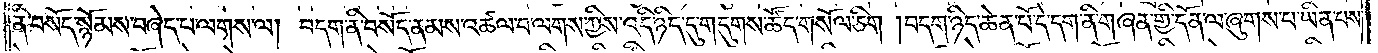ནི་བསོད་སྙོམས་བཞེད་པ་ལགས་ལ། བདག་ནི་བསོད་ནམས་འཚལ་བ་ལགས་ཀྱིས་འདི་ཉིད་དུ་གདུགས་ཚོད་གསོལ་ཅིག །བདག་ཉིད་ཆེན་པོ་དེ་དག་ནི་གཞན་གྱི་དོན་ལ་ཞུགས་པ་ཡིན་པས་
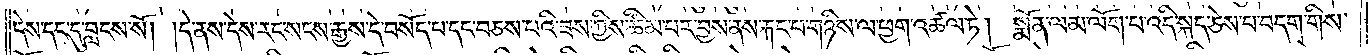དེས་དང་དུ་བླངས་སོ། །དེ་ནས་དེས་རང་སངས་རྒྱས་དེ་བསོད་པ་དང་བཅས་པའི་ཟས་ཀྱིས་ཚིམ་པར་བྱས་ནས་རྐང་པ་གཉིས་ལ་ཕྱག་འཚལ་ཏེ། སྨོན་ལམ་ལོག་པ་འདི་སྐད་ཅེས་པ་བདག་གིས་
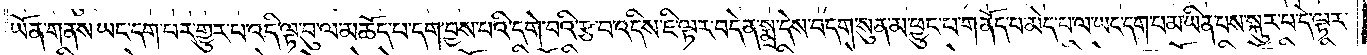ཡོན་གནས་ཡང་དག་པར་གྱུར་པ་འདི་ལྟ་བུ་ལ་མཆོད་པ་དག་བྱས་པའི་དགེ་བའི་རྩ་བ་འདིས་ཇི་ལྟར་བདེན་སྨྲ་དེས་བདག་སུན་མ་ཕྱུང་པ་གནོད་པ་མེད་པ་ལ་ཡང་དག་པ་མ་ཡིན་པས་སྐུར་པ་དེ་ལྟར་
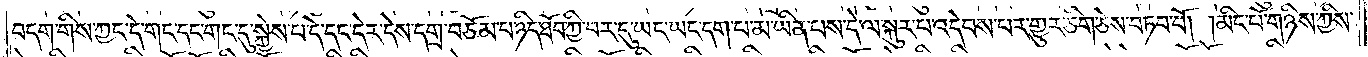བདག་གིས་ཀྱང་དེ་གང་དང་གང་དུ་སྐྱེས་པ་དེ་དང་དེར་དེས་དགྲ་བཅོམ་པ་ཉིད་ཐོབ་ཀྱི་བར་དུ་ཡང་ཡང་དག་པ་མ་ཡིན་པས་དེ་ལ་སྐུར་པ་འདེབས་པར་གྱུར་ཅིག་ཅེས་བཏབ་བོ། །མིང་པོ་གཉིས་ཀྱིས་
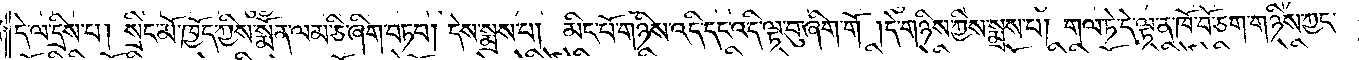དེ་ལ་དྲིས་པ། སྲིང་མོ་ཁྱོད་ཀྱིས་སྨོན་ལམ་ཅི་ཞིག་བཏབ། དེས་སྨྲས་པ། མིང་པོ་གཉིས་འདི་དང་འདི་ལྟ་བུ་ཞིག་གོ །དེ་གཉིས་ཀྱིས་སྨྲས་པ། གལ་ཏེ་དེ་ལྟ་ན་ཁོ་བོ་ཅག་གཉིས་ཀྱང་
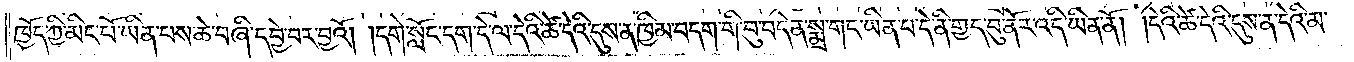ཁྱོད་ཀྱི་མིང་པོ་ཡིན་པས་ཆེ་བཞི་དབྱེ་བར་བྱའོ། །དགེ་སློང་དག་དེ་ལ་དེའི་ཚེ་དེའི་དུས་ན་ཁྱིམ་བདག་གི་བུ་བདེན་སྨྲ་གང་ཡིན་པ་དེ་ནི་གྱད་བུ་ནོར་འདི་ཡིན་ནོ། །དེའི་ཚེ་དེའི་དུས་ན་དེའི་མ་
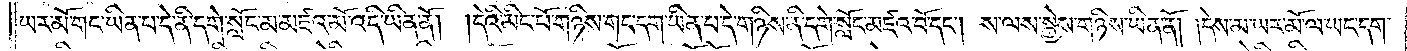ཡར་མོ་གང་ཡིན་པ་དེ་ནི་དགེ་སློང་མ་མཛའ་མོ་འདི་ཡིན་ནོ། །དེའི་མིང་པོ་གཉིས་གང་དག་ཡིན་པ་དེ་གཉིས་ནི་དགེ་སློང་མཛའ་བོ་དང༌། ས་ལས་སྐྱེས་གཉིས་ཡིན་ནོ། །དེས་མ་ཡར་མོ་ལ་ཡང་དག་
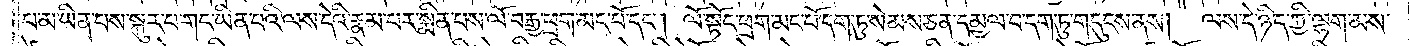པ་མ་ཡིན་པས་སྐུར་བ་གང་ཡིན་པའི་ལས་དེའི་རྣམ་པར་སྨིན་པས་ལོ་བརྒྱ་ཕྲག་མང་པོ་དང༌། ལོ་སྟོང་ཕྲག་མང་པོ་དག་ཏུ་སེམས་ཅན་དམྱལ་བ་དག་ཏུ་གདུངས་ནས།    ལས་དེ་ཉིད་ཀྱི་ལྷག་མས་
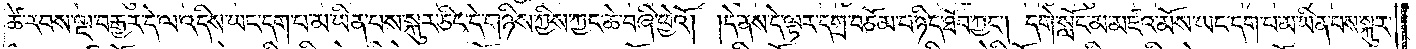ཚེ་རབས་ལྔ་བརྒྱར་དེ་ལ་འདིས་ཡང་དག་པ་མ་ཡིན་པས་སྐུར་ཅིང་དེ་གཉིས་ཀྱིས་ཀྱང་ཆེ་བཞི་ཕྱེའོ། །དེ་ནས་དེ་ལྟར་དགྲ་བཅོམ་པ་ཉིད་ཐོབ་ཀྱང༌། དགེ་སློང་མ་མཛའ་མོས་ཡང་དག་པ་མ་ཡིན་པས་སྐུར་
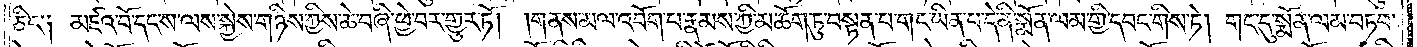ཅིང་༑ མཛའ་བོ་དང་ས་ལས་སྐྱེས་གཉིས་ཀྱིས་ཆེ་བཞི་ཕྱེ་བར་གྱུར་ཏོ། །གནས་མལ་འབོག་པ་རྣམས་ཀྱི་མཆོག་ཏུ་བསྟན་པ་གང་ཡིན་པ་དེ་ནི་སྨོན་ལམ་གྱི་དབང་གིས་ཏེ། གང་དུ་སྨོན་ལམ་བཏབ་
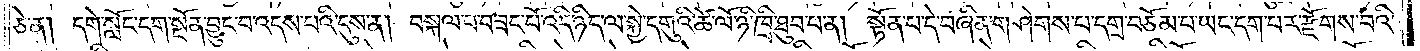ཅེ་ན། དགེ་སློང་དག་སྔོན་བྱུང་བ་འདས་པའི་དུས་ན། བསྐལ་བ་བཟང་པོ་འདི་ཉིད་ལ་སྐྱེ་དགུའི་ཚེ་ལོ་ཉི་ཁྲི་ཐུབ་པ་ན། སྟོན་པ་དེ་བཞིན་གཤེགས་པ་དགྲ་བཅོམ་པ་ཡང་དག་པར་རྫོགས་པའི་
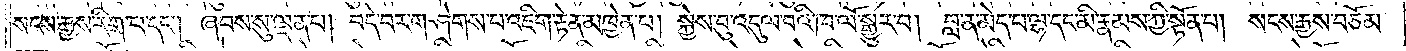སངས་རྒྱས་རིག་པ་དང༌། ཞབས་སུ་ལྡན་པ། བདེ་བར་གཤེགས་པ་འཇིག་རྟེན་མཁྱེན་པ། སྐྱེས་བུ་འདུལ་བའི་ཁ་ལོ་སྒྱུར་བ། བླ་ན་མེད་པ་ལྷ་དང་མི་རྣམས་ཀྱི་སྟོན་པ། སངས་རྒྱས་བཅོམ་
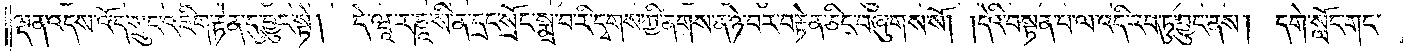ལྡན་འདས་འོད་སྲུང་འཇིག་རྟེན་དུ་བྱུང་སྟེ།   དེ་ཝཱ་ར་ཎཱ་སི་ན་དྲང་སྲོང་སྨྲ་བ་རི་དྭགས་ཀྱི་ནགས་ན་ཉེ་བར་བརྟེན་ཅིང་བཞུགས་སོ། །དེའི་བསྟན་པ་ལ་འདི་རབ་ཏུ་བྱུང་ནས། དགེ་སློང་གང་
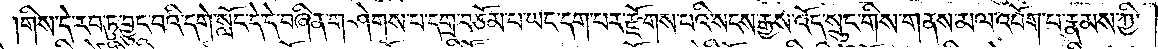།གིས་དེ་རབ་ཏུ་བྱུང་བའི་དགེ་སློང་དེ་དེ་བཞིན་གཤེགས་པ་དགྲ་བཅོམ་པ་ཡང་དག་པར་རྫོགས་པའི་སངས་རྒྱས་འོད་སྲུང་གིས་གནས་མལ་འབོག་པ་རྣམས་ཀྱི་
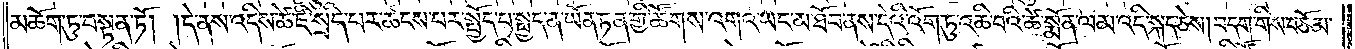མཆོག་ཏུ་བསྟན་ཏོ། །དེ་ནས་འདིས་ཚེ་ཇི་སྲིད་པར་ཚངས་པར་སྤྱོད་པ་སྤྱད་ན་ཡོན་ཏན་གྱི་ཚོགས་འགའ་ཡང་མ་ཐོབ་ནས་དེའི་འོག་ཏུ་འཆི་བའི་ཚེ་སྨོན་ལམ་འདི་སྐད་ཅེས། བདག་གིས་བཅོམ་
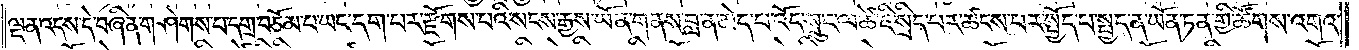ལྡན་འདས་དེ་བཞིན་གཤེགས་པ་དགྲ་བཅོམ་པ་ཡང་དག་པར་རྫོགས་པའི་སངས་རྒྱས་ཡོན་གནས་བླ་ན་མེད་པ་འོད་སྲུང་ལ་ཚེ་ཇི་སྲིད་པར་ཚངས་པར་སྤྱོད་པ་སྤྱད་ན་ཡོན་ཏན་གྱི་ཚོགས་འགའ་
